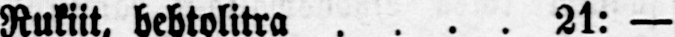Rukiit, hehtolitra 21: —
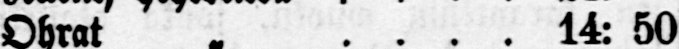Ohrat „ 14: 50
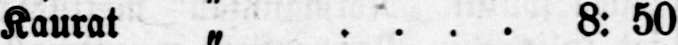Kaurat „ 8: 50
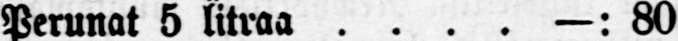Perunat 5 litra —: 80
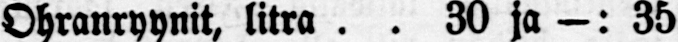Ohranryynit, litra 30 ja -: 35
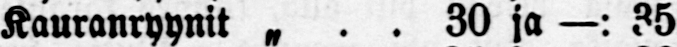Kauranryynit „ 30 ja —: 35
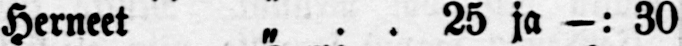Herneet „ 25 ja -: 30
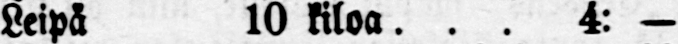Leipä 10 kiloo 4: —
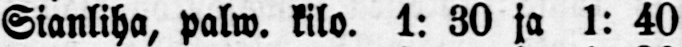Sianliha, palw. kilo. 1: 30 ja 1: 40
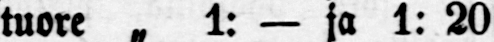„ tuore „ 1: — ja 1: 20
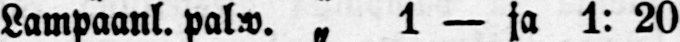Lampaanl. palw. „ 1 — ja 1: 20
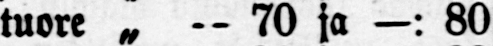„ tuore „ — 70 ja —: 80
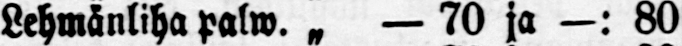Lehmänliha palw. „ — 70 ja —: 80
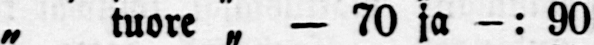„ tuore „ — 70 Za -: 90
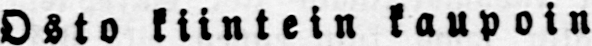Osto kiintein kaupoin
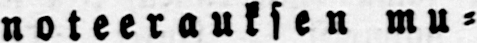noteerauksen mu-
